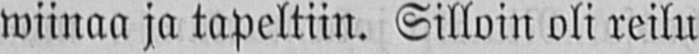wiinaa ja tapeltiin. Silloin oli reilu
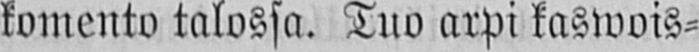komento talossa. Tuo arpi kaswois-
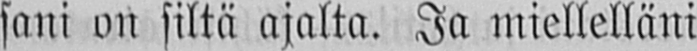sani on siltä ajalta. Ja miellelläni
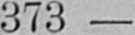373
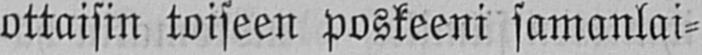ottaisin toiseen poskeeni samanlai-
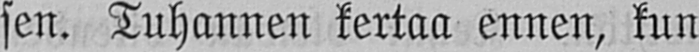sen. Tuhannen kertaa ennen, kun
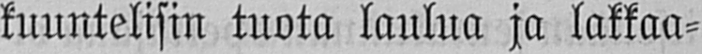kuuntelisin tuota laulua ja lakkaa-
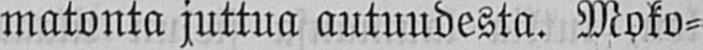matonta juttua autuudesta. Moko-
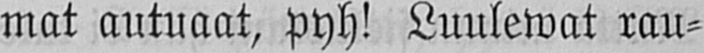mat autuaat, pyh! Luulewat rau-
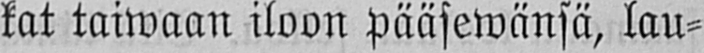kat taiwaan iloon pääsewänsä, lau-
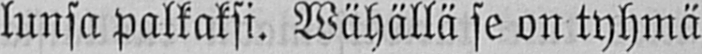lunsa palkaksi. Wähällä se on tyhmä
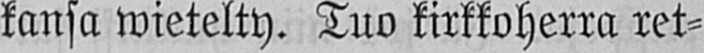kansa wietelty. Tuo kirkkoherra ret-
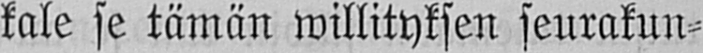kale se tämän willityksen seurakun-
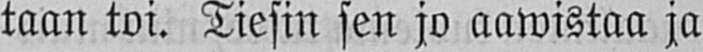taan toi. Tiesin sen jo aawistaa ja
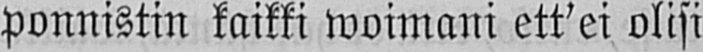ponnistin kaikki woimani ett'ei olisi
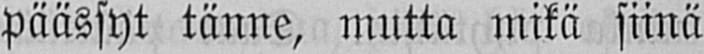päässyt tänne, mutta mikä siinä
